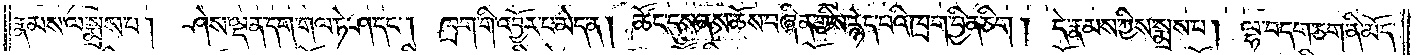རྣམས་ལ་སྨྲས་པ། ཤེས་ལྡན་དག་གལ་ཏེ་ཤ་དང༌། ཁྲག་གི་འབྱོར་པ་མེད་ན། ཚོང་དུས་ནས་ཆོས་བཞིན་གྱིས་རྙེད་པའི་ཁྲག་བྱིན་ཅིག །དེ་རྣམས་ཀྱིས་སྨྲས་པ། ལྷ་བདག་ཅག་ནི་མོད་
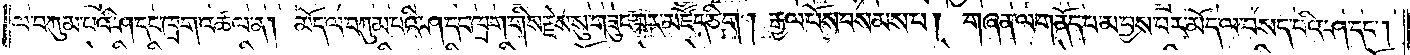ལ་བཀུམ་པའི་ཤ་དང་ཁྲག་འཚལ་ན། མོད་ལ་བཀུམ་པའི་ཤ་དང་ཁྲག་གིས་རྗེས་སུ་གཟུང་བར་མཛོད་ཅིག །རྒྱལ་པོས་བསམས་པ། གཞན་ལ་གནོད་པ་མ་བྱས་པར་མོད་ལ་བསད་པའི་ཤ་དང༌།
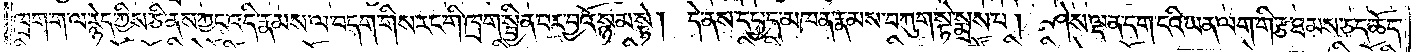ཁྲག་ག་ལ་རྙེད་ཀྱིས་ཅི་ནས་ཀྱང་འདི་རྣམས་ལ་བདག་གིས་རང་གི་ཁྲག་སྦྱིན་པར་བྱའོ་སྙམ་སྟེ། དེ་ནས་དཔྱད་མཁན་རྣམས་བཀུག་སྟེ་སྨྲས་པ། ཤེས་ལྡན་དག་ངའི་ཡན་ལག་གི་རྩ་ཐམས་ཅད་ཆོད་
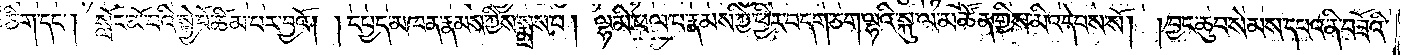ཅིག་དང༌། སློང་མོ་བའི་སྐྱེ་བོ་ཚིམ་པར་བྱའོ། །དཔྱད་མཁན་རྣམས་ཀྱིས་སྨྲས་པ། ལྷ་མི་ཕལ་པ་རྣམས་ཀྱི་ཕྱིར་བདག་ཅག་ལྷའི་སྐུ་ལ་མཚོན་གྱིས་མི་འདེབས་སོ། །བྱང་ཆུབ་སེམས་དཔའ་ནི་བཟོའི་
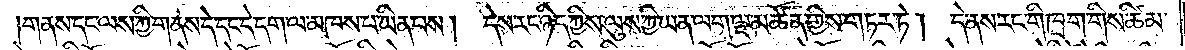གནས་དང་ལས་ཀྱི་གནས་དེ་དང་དེ་དག་ལ་མཁས་པ་ཡིན་པས། དེས་རང་ཉིད་ཀྱིས་ལུས་ཀྱི་ཡན་ལག་ལྔ་མཚོན་གྱིས་གཏར་ཏེ། དེ་ནས་རང་གི་ཁྲག་གིས་ཚིམ་
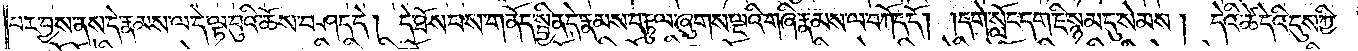པར་བྱས་ནས་དེ་རྣམས་ལ་དེ་ལྟ་བུའི་ཆོས་བཤད་དེ། དེ་ཐོས་པས་གནོད་སྦྱིན་དེ་རྣམས་བརྟུལ་ཞུགས་ལྔའི་གཞི་རྣམས་ལ་བཀོད་དོ། །དགེ་སློང་དག་ཇི་སྙམ་དུ་སེམས། དེའི་ཚེ་དེའི་དུས་ཀྱི་
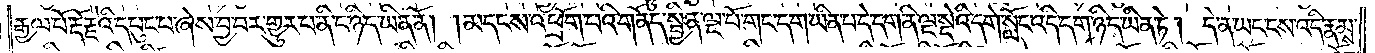རྒྱལ་པོ་རྡོ་རྗེའི་དཔུང་པ་ཞེས་བྱ་བར་གྱུར་པ་ནི་ང་ཉིད་ཡིན་ནོ། །མདངས་འཕྲོག་པའི་གནོད་སྦྱིན་ལྔ་པོ་གང་དག་ཡིན་པ་དེ་དག་ནི་ལྔ་སྡེའི་དགེ་སློང་འདི་དག་ཉིད་ཡིན་ཏེ། དེ་ན་ཡང་ངས་འདི་རྣམས་
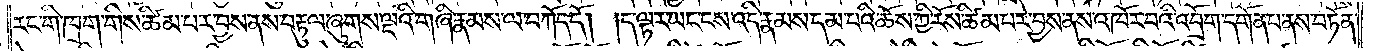རང་གི་ཁྲག་གིས་ཚིམ་པར་བྱས་ནས་བརྟུལ་ཞུགས་ལྔའི་གཞི་རྣམས་ལ་བཀོད་དོ། །ད་ལྟར་ཡང་ངས་འདི་རྣམས་དམ་པའི་ཆོས་ཀྱི་རོས་ཚིམ་པར་བྱས་ནས་འཁོར་བའི་འབྲོག་དགོན་པ་ནས་བཏོན་
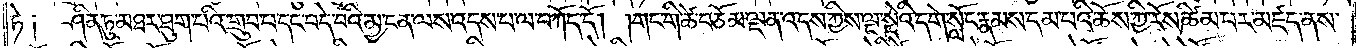ཏེ༑ ཤིན་ཏུ་མཐར་ཐུག་པའི་གྲུབ་པ་དང་བདེ་བའི་མྱ་ངན་ལས་འདས་པ་ལ་བཀོད་དོ། །གང་གི་ཚེ་བཅོམ་ལྡན་འདས་ཀྱིས་ལྔ་སྡེའི་དགེ་སློང་རྣམས་དམ་པའི་ཆོས་ཀྱི་རོས་ཚིམ་པར་མཛད་ནས་
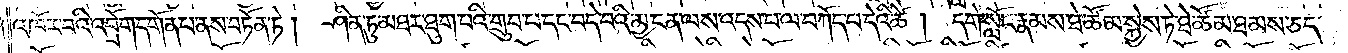འཁོར་བའི་འབྲོག་དགོན་པ་ནས་བཏོན་ཏེ། ཤིན་ཏུ་མཐར་ཐུག་པའི་གྲུབ་པ་དང་བདེ་བའི་མྱ་ངན་ལས་འདས་པ་ལ་བཀོད་པ་དེའི་ཚེ། དགེ་སློང་རྣམས་ཐེ་ཚོམ་སྐྱེས་ཏེ་ཐེ་ཚོམ་ཐམས་ཅད་
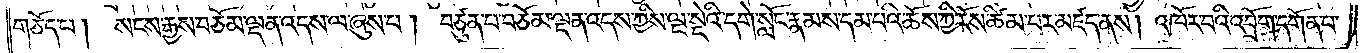གཅོད་པ། སངས་རྒྱས་བཅོམ་ལྡན་འདས་ལ་ཞུས་པ། བཙུན་པ་བཅོམ་ལྡན་འདས་ཀྱིས་ལྔ་སྡེའི་དགེ་སློང་རྣམས་དམ་པའི་ཆོས་ཀྱི་རོས་ཚིམ་པར་མཛད་ནས། འཁོར་བའི་འབྲོག་དགོན་པ་
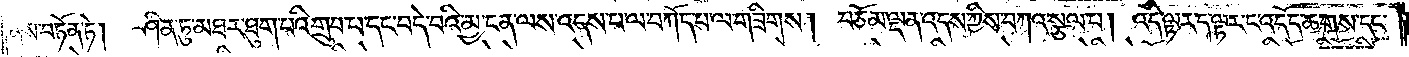ནས་བཏོན་ཏེ།  ཤིན་ཏུ་མཐར་ཐུག་པའི་གྲུབ་པ་དང་བདེ་བའི་མྱ་ངན་ལས་འདས་པ་ལ་བཀོད་པ་ལ་གཟིགས། བཅོམ་ལྡན་འདས་ཀྱིས་བཀའ་སྩལ་པ། འདི་ལྟར་ད་ལྟར་ང་འདོད་ཆགས་དང་
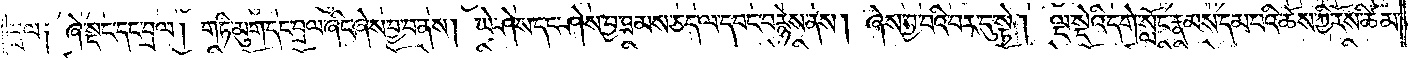བྲལ༑ ཞེ་སྡང་དང་བྲལ། གཏི་མུག་དང་བྲལ་ཞིང་ཞེས་བྱ་བ་ནས། ཡེ་ཤེས་དང་ཤེས་བྱ་ཐམས་ཅད་ལ་དབང་བརྙེས་ནས། ཞེས་བྱ་བའི་བར་དུ་སྟེ། ལྔ་སྡེའི་དགེ་སློང་རྣམས་དམ་པའི་ཆོས་ཀྱི་རོས་ཚིམ་
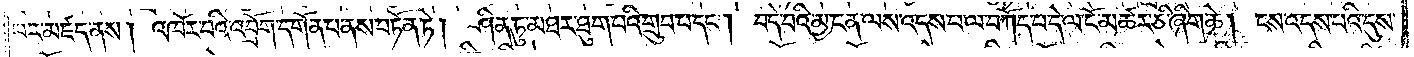པར་མཛད་ནས། འཁོར་བའི་འབྲོག་དགོན་པ་ནས་བཏོན་ཏེ། ཤིན་ཏུ་མཐར་ཐུག་པའི་གྲུབ་པ་དང༌། བདེ་བའི་མྱ་ངན་ལས་འདས་པ་ལ་བཀོད་པ་དེ་ལ་ངོ་མཚར་ཅི་ཞིག་ཆེ། ངས་འདས་པའི་དུས་
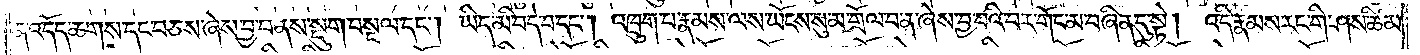ན་འདོད་ཆགས་དང་བཅས་ཞེས་བྱ་བ་ནས་སྡུག་བསྔལ་དང༌། ཡིད་མི་བདེ་བ་དང༌། འཁྲུག་པ་རྣམས་ལས་ཡོངས་སུ་མ་གྲོལ་བ་ན་ཞེས་བྱ་བའི་བར་གོང་མ་བཞིན་དུ་སྟེ། འདི་རྣམས་རང་གི་ཤས་ཚིམ་
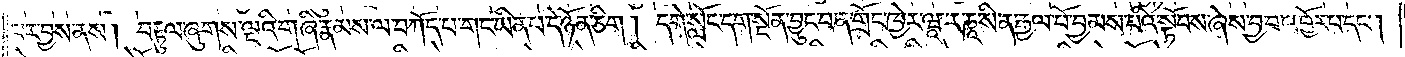པར་བྱས་ནས། བརྟུལ་ཞུགས་ལྔའི་གཞི་རྣམས་ལ་བཀོད་པ་གང་ཡིན་པ་དེ་ཉོན་ཅིག །དགེ་སློང་དག་སྔོན་བྱུང་བ་ན་གྲོང་ཁྱེར་ཝཱ་ར་ཎཱ་སི་ན་རྒྱལ་པོ་བྱམས་པའི་སྟོབས་ཞེས་བྱ་བ་འབྱོར་པ་དང༌།
